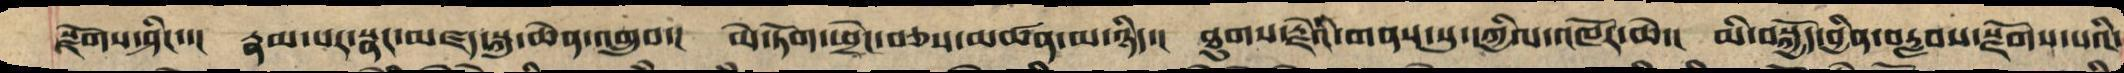སྫོགས་ཤིང་་། རྣམ་པར་སྣང་མཛད་སྐུ་ཆེན་འགྲུབ་། མེ་ཏོག་ཕྲེང་བཅས་མཚན་མ་ཉིད་། ཐུགས་རྗེའི་གནས་སུ་དཀྱིལ་འཁོར་ཆེ་། མི་བསྐྱོད་བྱིན་བརླབས་སྫོགས་པའི་
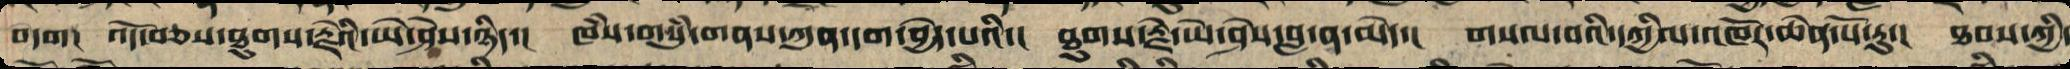བདག། འོད་བཅས་ཐུགས་རྗེའི་ཡེ་ཤེས་ཉིད་། ཁཾས་གསུཾ་གནས་ཀུན་དག་བྱེད་པའི་། ཐུགས་རྗེ་ཡེ་ཤེས་བླ་ན་མེད་། གསལ་བའི་དཀྱིལ་འཁོར་ཆེན་པོ་རུ་། ཐབས་ཀྱི་
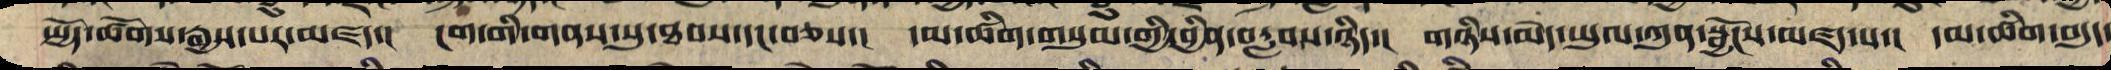སྤྱོད་ཚོགས་རྒྱས་པར་མཛད་། ངག་གི་གནས་སུ་ཐབས་དང་བཅས་། དམ་ཚིག་གསུམ་གྱི་བྱིན་བརླབས་ཉིད་། གཉིས་མེད་ཡུལ་ཀུན་སྦྱོང་མཛད་པ་། དམ་ཚིག་བདུད་
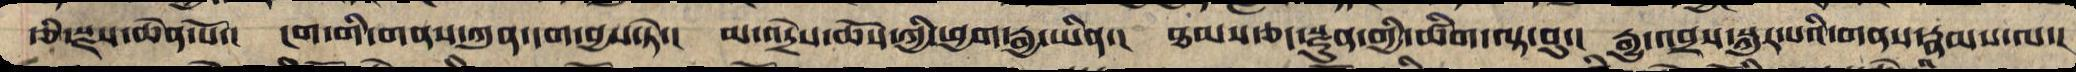རྩི་སྫས་ཆེན་པོ་། ངག་གི་གནས་ཀུན་དག་བྱས་ཏེ་། མ་འདྲེས་ཆོས་ཀྱི་ཕྱག་རྒྱ་ཡིན་། ཐམས་ཅད་སྫུན་གྱི་ཚིག་ལྟ་བུ་། རྒྱུ་འབྲས་སྐུར་པའི་གནས་རྣམས་ལ་།
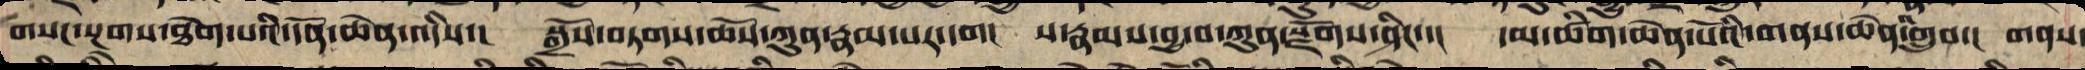གསང་སྔགས་ཐེག་པའི་དོན་ཆེན་འདིས་། སྒྲོས་བཏགས་ཆོས་ཀུན་རྣམ་པར་དག། ས་རྣམས་བྱ་བ་ཀུན་སྫོགས་ཤིང་་། དམ་ཚིག་ཆེན་པོའི་གནས་ཆེན་འགྲུབ་། གནས་
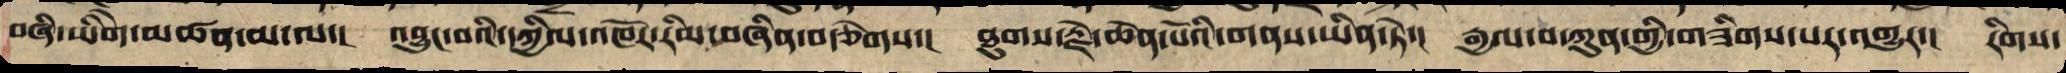བཞི་ཡིགེ་མཚན་མ་ལ་། འབྱུང་བའི་དཀྱིལ་འཁོར་རིམ་བཞིན་བརྩེགས་། ཐུགས་རྗེ་ཆེན་པོའི་གནས་ཡིན་ཏེ་། རྒྱལ་བ་ཀུན་གྱི་གཟིགས་པར་འགྱུར་། རིགས་
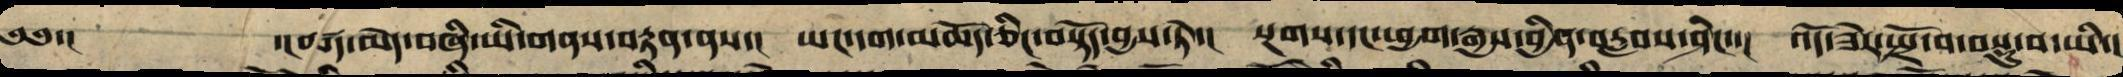༄༅་།           ་།ཚད་མེད་བཞི་ཡི་གནས་བརྟན་ནས་། ཡང་དག་མཆོད་ཅིང་བསྟོད་བྱས་ཏེ་། སྔགས་དང་ཕྱག་རྒྱས་བྱིན་བརླབས་ཤིང་་། འོད་ཟེར་སྤྲོ་བ་བསྡུ་བ་ཡི་།
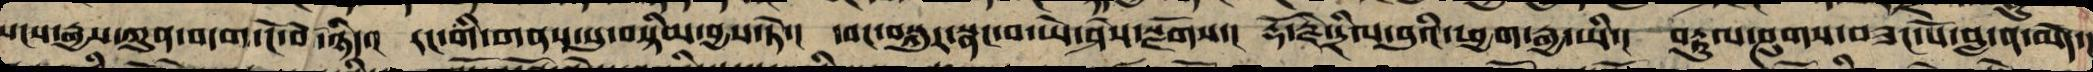སངས་རྒྱས་ཀུན་བདག་ངོ་བོ་ཉིད་། རང་གི་གནས་སུ་བསྟིམ་བྱས་ཏེ་། དབང་བསྐུར་སྣང་བ་ཡེ་ཤེས་སྫོགས་། རྡོ་རྗེ་དྲིལ་བུའི་ཕྱག་རྒྱ་ཡི་། བརྟུལ་ཞུགས་བཟང་པོ་བླ་ན་མེད་།
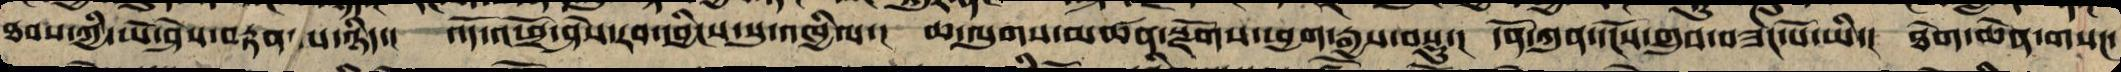ཐབས་ཀྱི་ཡེ་ཤེས་བརྟན་པ་ཉིད་། འོད་འཕྲོ་ཤེས་རབ་དབྱིངས་སུ་འཁྱིལ་། ཆ་ལུགས་མཚན་སྫོགས་ཕྱག་རྒྱས་བསྡུ་། དོན་ཀུན་དངོས་གྲུབ་བཟང་པོ་ཡི་། ཐེག་ཆེན་གསང་
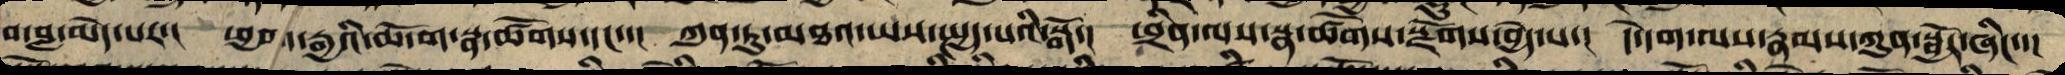བ་བླ་མེད་པར་། ཕྱག་རྒྱའི་ཆོ་ག་སྣ་ཚོགས་དང་་། ཀུན་ཏུ་མཐའ་ཡས་སྤྱད་པའི་སྒོ་། ཕྲིན་ལས་སྣ་ཚོགས་སྫོགས་བྱེད་པ་། དེ་དག་ལས་རྣམས་ཀུན་སྦྱོར་ཞིང་་།
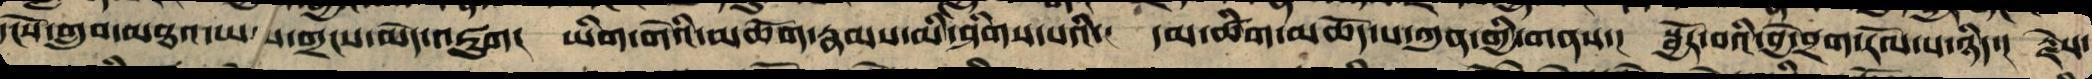དངོས་གྲུབ་མཐའ་ཡས་གྲངས་མེད་འཇུག། ཡི་གེའི་མཆོག་རྣམས་མི་ཤིགས་པའི་། དམ་ཚིག་མཆོད་པ་ཀུན་གྱི་གནས་། སྦྱོར་བའི་བྱེ་བྲག་རོལ་པ་ཉིད་། རྗེས་
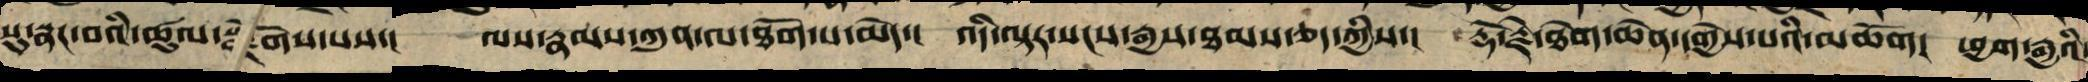སུ་སྣང་བའི་ཚུལ་སྫོགས་པས་། ལས་རྣམས་ཀུན་ལ་ཐོག་པ་མེད་། འདི་ལྟར་སངས་རྒྱས་ཐམས་ཅད་ཀྱིས་། རྡོ་རྗེ་ཐེག་ཆེན་དགྱེས་པའི་མཆོག། ཕྱག་རྒྱའི་
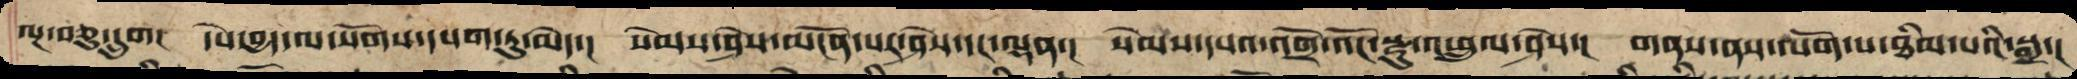ལྔ་བཅུ་དྲུག། དཔེ་བྱད་ལ་སོགས་དཔག་ཏུ་མེད་། སེམས་ཤེས་མངོན་པར་ཤེས་དང་ལྡན་། སེམས་དཔའ་འགྲོ་འོང་སྫུ་འཕྲུལ་ཤེས་། གནས་ནས་ལོག་པ་ཐིམ་པའི་སྒྲ་།
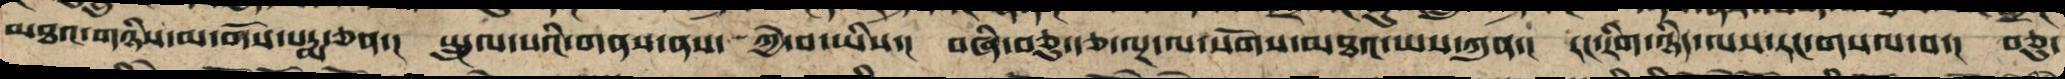མཐའ་གཉིས་མ་གོས་པདྨ་ཅན་། སྤྲུལ་པའི་གནས་ནས་  ཀྱེ་བ་ཡིས་། བཞི་བཅུ་རྩ་ལྔ་ལ་སོགས་མཐའ་ཡས་ཀུན་། རང་རིག་ཉིད་ལས་རང་གསལ་བ་། བཅུ་
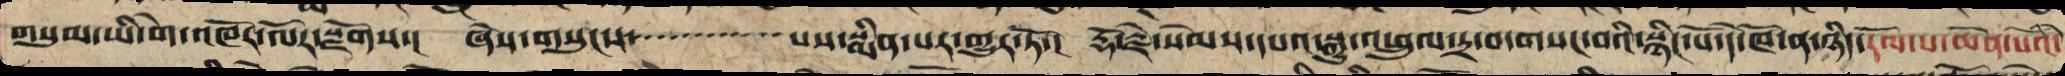གསུམ་ཡི་གེ་འཁོར་ལོར་སྫོགས་། ཞེས་གསུངས་            པས་སྨིན་པར་གྱུར་ཏོ་། རྡོ་རྗེ་སེམས་དཔའ་སྒྱུ་འཕྲུལ་དྲ་བ་གསང་བའི་སྙིང་པོ་དེ་ཁོ་ན་ཉིད་རོལ་པ་ཆེན་པོའི་
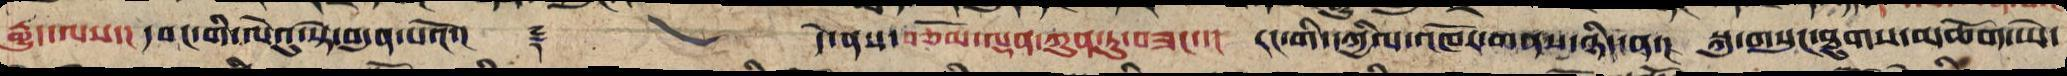རྒྱུད་ལས་། དབང་གི་ལེའུ་སྟེ་བདུན་པའོ་།།      ༈           །དེ་ནས་བཅོམ་ལྡན་ཀུན་ཏུ་བཟང་་། རང་གི་དཀྱིལ་འཁོར་གནས་ཉིད་ན་། སྐུ་གསུང་ཐུགས་མཆོག་ཡེ་
